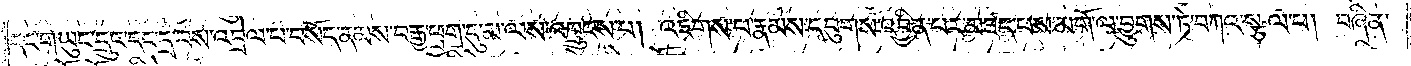དང་གཡུང་དྲུང་དང་དྲ་བས་འབྲེལ་པ་བསོད་ནམས་བརྒྱ་ཕྲག་དུ་མ་ལས་འཁྲུངས་པ། འཇིགས་པ་རྣམས་དབུགས་འབྱིན་པར་མཛད་པས་མགོ་ལ་བྱུགས་ཏེ་བཀའ་སྩལ་པ། བཞིན་
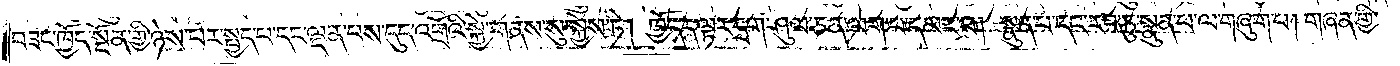བཟང་ཁྱོད་སྔོན་གྱི་ཉེས་པར་སྤྱད་པ་དང་ལྡན་པས་དུད་འགྲོའི་སྐྱེ་གནས་སུ་སྐྱེས་ཏེ། ཁྱོད་ད་ལྟར་དྲག་ཤུལ་ཅན་ལག་པ་དམར་བ། སྣུན་པ་དང་རབ་ཏུ་སྣུན་པ་ལ་གཞུག་པ། གཞན་གྱི་
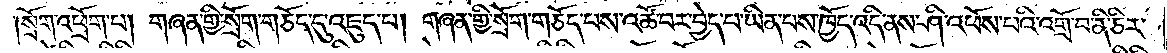སྲོག་འཕྲོག་པ། གཞན་གྱི་སྲོག་གཅོད་དུ་འཇུད་པ། གཞན་གྱི་སྲོག་གཅོད་བས་འཚོ་བར་བྱེད་པ་ཡིན་པས་ཁྱོད་འདི་ནས་ཤི་འཕོས་པའི་འགྲོ་བ་ནི་ཅིར་
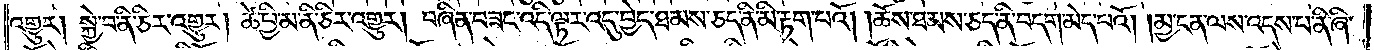འགྱུར། སྐྱེ་བ་ནི་ཅིར་འགྱུར། ཚེ་ཕྱི་མ་ནི་ཅིར་འགྱུར། བཞིན་བཟང་འདི་ལྟར་འདུ་བྱེད་ཐམས་ཅད་ནི་མི་རྟག་པའོ། །ཆོས་ཐམས་ཅད་ནི་བདག་མེད་པའོ། །མྱ་ངན་ལས་འདས་པ་ནི་ཞི་
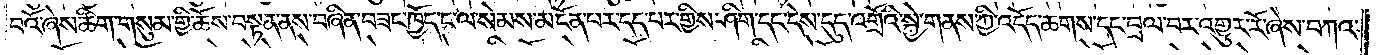བའོ་ཞེས་ཚིག་གསུམ་གྱི་ཆོས་བསྟན་ནས་བཞིན་བཟང་ཁྱོད་ང་ལ་སེམས་མངོན་པར་དད་པར་གྱིས་ཤིག་དང་དེས་དུད་འགྲོའི་སྐྱེ་གནས་ཀྱི་འདོད་ཆགས་དང་བྲལ་བར་འགྱུར་རོ་ཞེས་བཀའ་
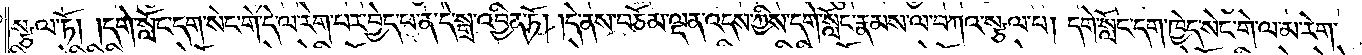སྩལ་ཏོ། །དགེ་སློང་དག་སེང་གེ་དེ་ལ་རེག་པར་བྱེད་པ་ན་དེ་སྒྲ་འབྱིན་ཏོ། །དེ་ནས་བཅོམ་ལྡན་འདས་ཀྱིས་དགེ་སློང་རྣམས་ལ་བཀའ་སྩལ་པ། དགེ་སློང་དག་ཁྱེད་སེང་གེ་ལ་མ་རེག་
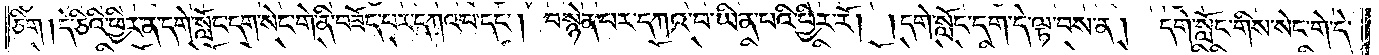ཅིག །དེ་ཅིའི་ཕྱིར་ན་དགེ་སློང་དག་སེང་གེ་ནི་བཟོད་པར་དཀའ་བ་དང༌། བསྙེན་པར་དཀའ་བ་ཡིན་པའི་ཕྱིར་རོ། །དགེ་སློང་དག་དེ་ལྟ་བས་ན། དགེ་སློང་གིས་སེང་གེ་དེ་
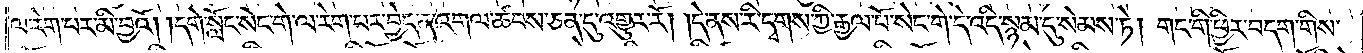ལ་རེག་པར་མི་བྱའོ། །དགེ་སློང་སེང་གེ་ལ་རེག་པར་བྱེད་ན་འགལ་ཚབས་ཅན་དུ་འགྱུར་རོ། །དེ་ནས་རི་དྭགས་ཀྱི་རྒྱལ་པོ་སེང་གེ་དེ་འདི་སྙམ་དུ་སེམས་ཏེ། གང་གི་ཕྱིར་བདག་གིས་
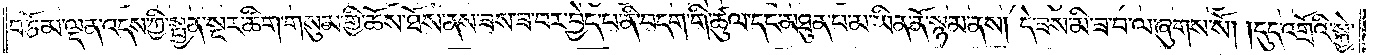བཅོམ་ལྡན་འདས་ཀྱི་སྤྱན་སྔར་ཚིག་གསུམ་གྱི་ཆོས་ཐོས་ནས་ཟས་ཟ་བར་བྱེད་པ་ནི་བདག་གི་ཚུལ་དང་མཐུན་པ་མ་ཡིན་ནོ་སྙམ་ནས། དེ་ཟས་མི་ཟ་བ་ལ་ཞུགས་སོ། །དུད་འགྲོའི་སྐྱེ་
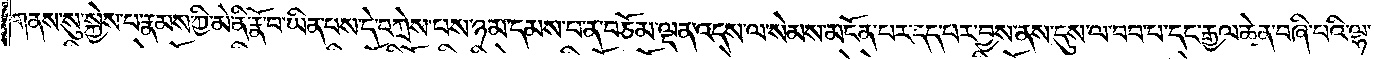གནས་སུ་སྐྱེས་པ་རྣམས་ཀྱི་མེ་ནི་རྣོ་བ་ཡིན་པས་དེ་བཀྲེས་པས་ཉམ་དམས་པ་ན་བཅོམ་ལྡན་འདས་ལ་སེམས་མངོན་པར་དད་པར་བྱས་ནས་དུས་ལ་བབ་པ་དང་རྒྱལ་ཆེན་བཞི་པའི་ལྷ་
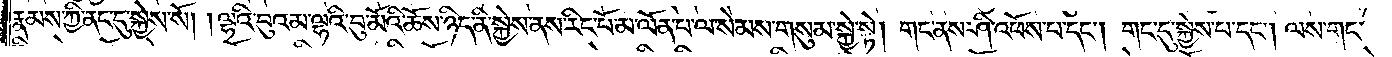རྣམས་ཀྱི་ནང་དུ་སྐྱེས་སོ། །ལྷའི་བུའམ་ལྷའི་བུ་མོའི་ཆོས་ཉིད་ནི་སྐྱེས་ནས་རིང་པོ་མ་ལོན་པ་ལ་སེམས་གསུམ་སྐྱེ་སྟེ། གང་ནས་ཤི་འཕོས་པ་དང༌། གང་དུ་སྐྱེས་པ་དང༌། ལས་གང་
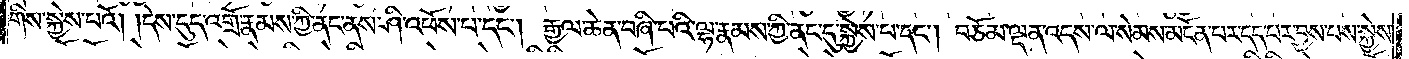གིས་སྐྱེས་པའོ། །དེས་དུད་འགྲོ་རྣམས་ཀྱི་ནང་ནས་ཤི་འཕོས་པ་དང༌། རྒྱལ་ཆེན་བཞི་པའི་ལྷ་རྣམས་ཀྱི་ནང་དུ་སྐྱེས་པ་དང༌། བཅོམ་ལྡན་འདས་ལ་སེམས་མངོན་པར་དད་པར་བྱས་པས་སྐྱེས་
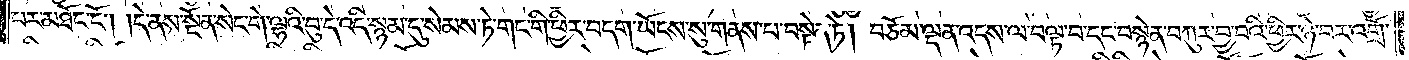པར་མཐོང་ངོ༌། །དེ་ནས་སྔོན་སེང་གེ་ལྷའི་བུ་དེ་འདི་སྙམ་དུ་སེམས་ཏེ་གང་གི་ཕྱིར་བདག་ཡོངས་སུ་གནས་པ་བསྟེན་ཏེ། བཅོམ་ལྡན་འདས་ལ་བལྟ་བ་དང་བསྙེན་བཀུར་བྱ་བའི་ཕྱིར་ཉེ་བར་འགྲོ་
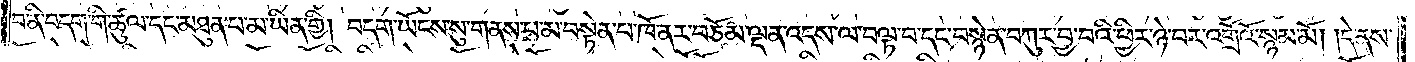བ་ནི་བདག་གི་ཚུལ་དང་མཐུན་པ་མ་ཡིན་གྱི། བདག་ཡོངས་སུ་གནས་པ་མ་བསྟེན་པ་ཁོ་ནར་བཅོམ་ལྡན་འདས་ལ་བལྟ་བ་དང་བསྙེན་བཀུར་བྱ་བའི་ཕྱིར་ཉེ་བར་འགྲོའོ་སྙམ་མོ། །དེ་ནས་
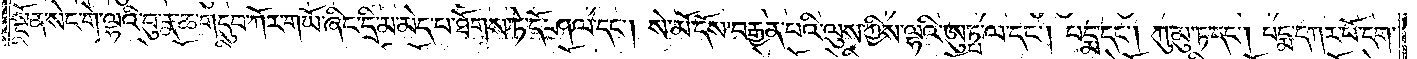སྔོན་སེང་གེ་ལྷའི་བུ་རྣ་ཆ་གདུབ་ཀོར་གཡོ་ཞིང་དྲི་མ་མེད་པ་ཐོགས་ཏེ་དོ་ཤལ་དང༌། སེ་མོ་དོས་བརྒྱན་པའི་ལུས་ཀྱིས་ལྷའི་ཨུཏྤ་ལ་དང༌། པདྨ་དང༌། ཀུ་མུ་ཏ་དང༌། པདྨ་དཀར་པོ་དག་
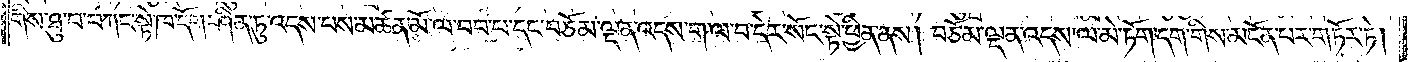གིས་ཐུ་བ་བཀང་སྟེ་ཁ་དོག་ཤིན་ཏུ་འདས་པས་མཚན་མོ་ལ་བབ་པ་དང་བཅོམ་ལྡན་འདས་ག་ལ་བ་དེར་སོང་སྟེ་ཕྱིན་ནས། བཅོམ་ལྡན་འདས་ལ་མེ་ཏོག་དག་གིས་མངོན་པར་གཏོར་ཏེ།
